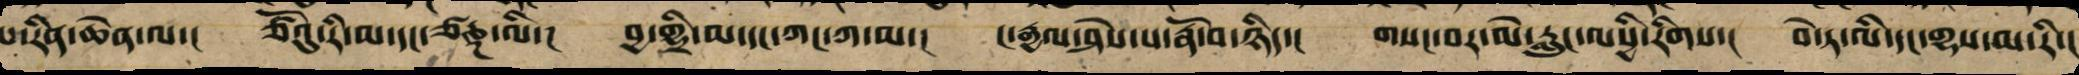པ་རིན་ཆེན་ལ་། ཙོའུ་རི་མ་དང་ཙཎྜ་ལི་།  བྱ་གྷྲི་མ་དང་ཀང་ཀ་མ་།  ང་རྒྱལ་ཤེས་པ་རྣོ་བ་ཉིད་།  གསང་བར་མེ་རླུང་ལསྱི་རིགས་།  བེ་ཏ་ལི་དང་གྷས་མ་རི་།
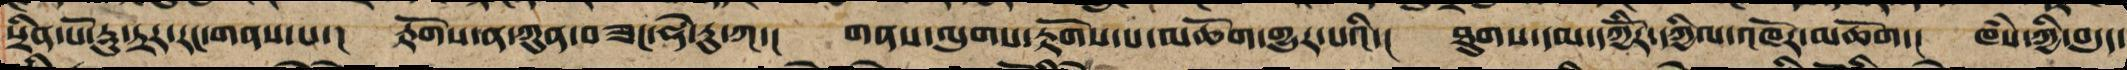སྲིན་པོ་རུ་ཏྲར་རང་གནས་པ་། རྟོགས་ན་ཀུན་བཟང་ཧེ་རུ་ཀ་། གནས་ལུགས་རྟོགས་པ་མཆོག་གྱུར་པའི་། ཐུགས་དམ་དཀྱོིར་དཀྱིལ་འཁོར་མཆོག། ཁཾས་ཀྱི་བདུད་
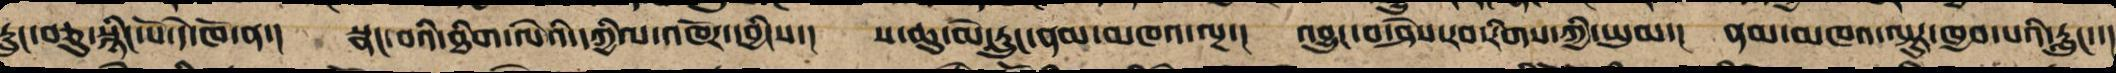རླུང་བཅུ་སྙིང་པོ་དེ་ཁོ་ན་། སྣང་བའི་ཐེག་ལེའི་དཀྱིལ་འཁོར་དབྱིངས་། ས་ཆུ་མེ་རླུང་ནམ་མཁའ་ལྔ་། འབྱུང་བ་ཤེས་རབ་རིགས་ཀྱི་ཡུམ་། ནམ་མཁའ་ལྟ་བུར་ཁྱབ་པའི་རླུང་་།
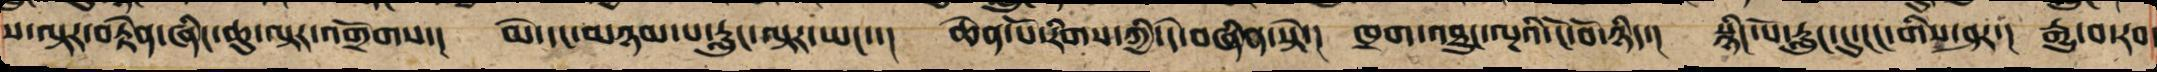ས་ལྟར་བརྟེན་ཞིང་ཆུ་ལྟར་འགྲོགས་། མེ་དང་མཉམ་པ་རླུང་ལྟར་ཡང་་། ཆེན་པོ་རིགས་ཀྱི་དེ་བཞིན་ཏེ་། ཁྲག་འཐུང་ལྔ་ཡི་ངོ་བོ་ཉིད་། སྙིང་པོ་རླུང་དུ་ངང་གིས་ཤར་། རྒྱུ་བ་རབ་
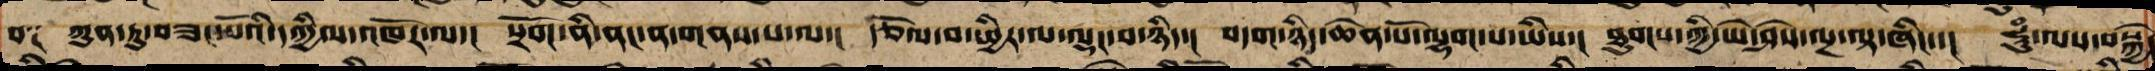བ༑ ཀུན་ཏུ་བཟང་པོའི་དཀྱིལ་འཁོར་ལ་། སྲོག་ནི་ནང་ན་གནས་པ་ལ་། རྩོལ་བ་ཕྱིར་ལ་ལྡང་བ་ཉིད་། བདག་ཉིད་ཆེན་པོ་ལྷག་པ་ཡིས་། ཐུགས་ཀྱི་ཡེ་ཤེས་ལྔ་བལྟ་ཞིང་་། ཧཱུཾ་ལས་བསྐྱེད་
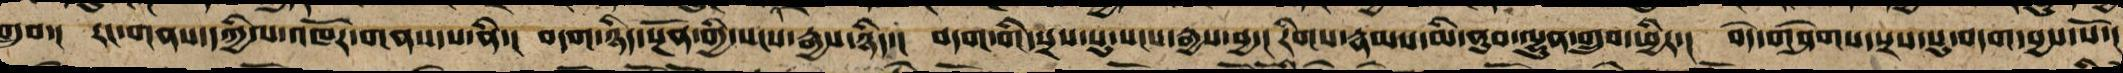གྲུབ་། རང་གནས་དཀྱིལ་འཁོར་གནས་པ་ནི་། བདག་ཉིད་སྔོན་གྱི་སངས་རྒྱས་ཉིད་། བདག་གི་སྲས་སུ་སངས་རྒྱས་བྱ་། རིགས་རྣམས་མི་ནུབ་ལྷུན་གྲུབ་ཕྱིར་། བདེ་གཤེགས་སྲས་སུ་བདག་བྱས་སོ་།
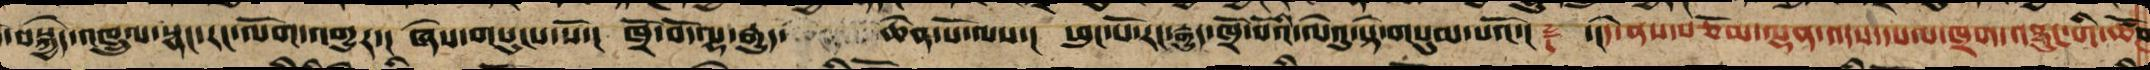་བསྐྱེད་འཁྲུལ་སྣང་རང་ལོག་འགྱུར་། ཞེས་གསུངས་སོ་། ཁྲོ་བོ་ལྷ་རྒྱུད་ཆེན་པོ་ལས་། ཕུང་པོ་རང་རྒྱུད་ཁྲོ་བོའི་ལེའུ་སྟེ་གསུམ་པའོ་།། ༈ །་།དེ་ནས་བཅོམ་ལྡན་འདས་དཔལ་ཁྲག་འཐུང་གི་ཚོག
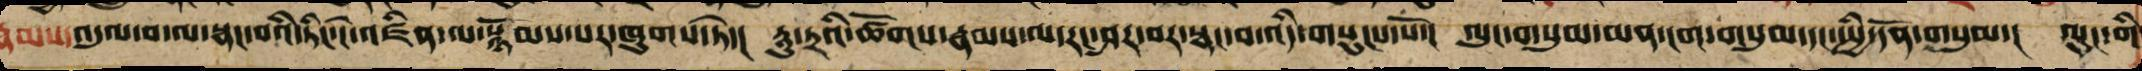རྣམས་འདུལ་བ་ལ་སྣང་བའི་ཏིང་ངེ་འཛིན་ལ་སྙོམས་པར་ཞུགས་ཏེ་། རཱུ་ཏྲའི་ཚོགས་ལ་རང་ཤར་བར་སྣང་བ་འདི་གསུངས་སོ་།  ལུང་གསུམ་མན་ངག་གསུམ་དང་སྤྱི་དོན་གསུམ་། ལུང་གི
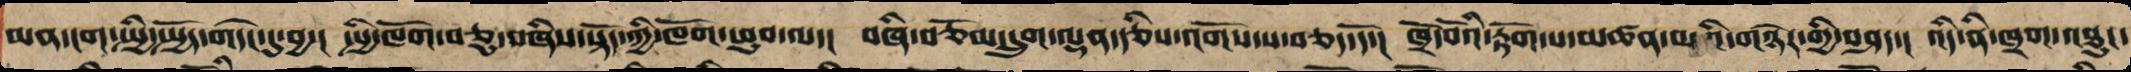མན་ངག་སྤྱི་སྤྱོད་གདེང་དུ་བྱ་། སྤྱི་ཁོག་བཅུ་བཞིས་སྟོད་ཀྱི་ཁོག་ཕུབ་ལ་། བཞི་བཅོམ་དྲུག་ལྡན་རྩིས་འགོས་ས་བཅད་དོ་། ཁྲོ་བོའི་རྟོག་པ་མཚན་མའི་གཉེར་གྱིས་བཤད་། འདི་ནི་ཁྲག་འཐུང་
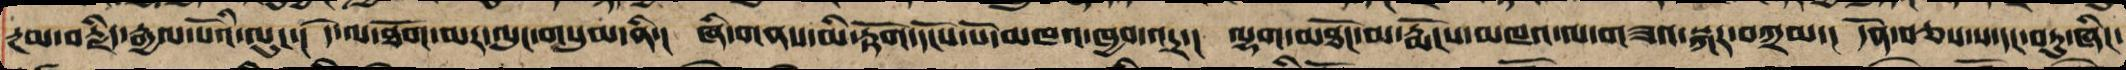རྔམ་བརྗིད་རྒྱལ་པོའི་ལུང་། དེ་ལ་ཐོག་མར་ལུང་གསུམ་ནི་། ཞི་གནས་མི་རྟོག་དངོས་པོ་མཁའ་ཁྱབ་འདྲ་། ལྷག་མཐོང་མ་རྨོངས་མཁའ་ལ་གཟའ་སྐར་བཀྲམ་། དོན་བཅས་པ་དང་བཏུ་ཞིང་
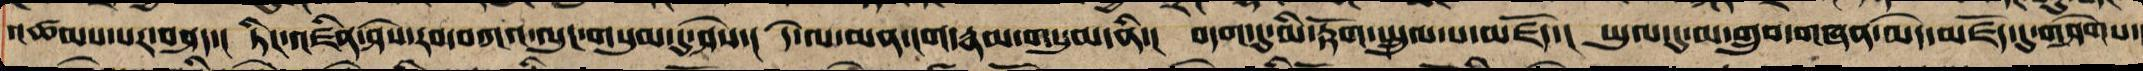འཚམས་པར་བཤད་། ཏིང་འཛིན་ཤེས་རབ་བཀའ་ལུང་གསུམ་དུ་ཤེས་། དེ་ལ་མན་ངག་རྣམ་གསུམ་ནི་། བདག་ཏུ་མི་རྟོག་སྤྲུལ་པ་མཛོད་། ཡུལ་དུ་མ་གྲུབ་གཞན་མེད་མཛོད་དུ་གཤེགས་
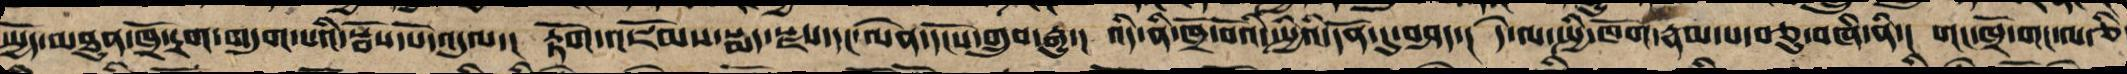སྤྱོད་མཐུན་ཁྲོ་དྲག་གདུག་པ་དཔའ་བོས་འདུལ་། རྟོག་འཇོམས་སྨད་སྫས་དང་ལེན་དངོས་གྲུབ་རྒྱུ་། འདི་ནི་ཁྲོ་བོའི་སྤྱིའི་དོན་དུ་བཤད་། དེ་ལ་སྤྱི་ཁོག་རྣམ་པ་བཅུ་བཞི་ནི་། གང་ཁྲོ་གང་ལ་ཅི
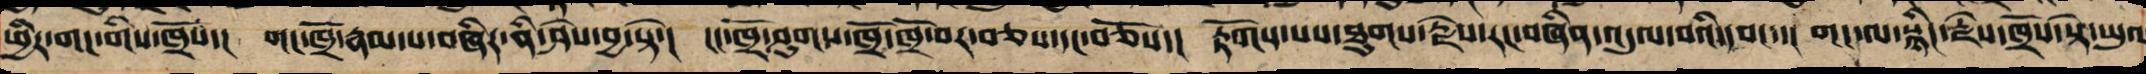ཕྱིར་གང་གིས་ཁྲོ་། གང་ཁྲོ་རྣམ་པ་བཞིར་ནི་ཤེས་བྱ་སྟེ་། རང་ཁྲོ་ཤུགས་ཁྲོ་ཁྲོ་བར་བཅས་དང་བཅོས་། རྟོགས་པས་ཐུགས་རྗེས་རང་བཞིན་འདུལ་བའི་དབང་་། གང་ལ་སྙིང་རྗེས་ཁྲོས་ཏེ་ཡུལ
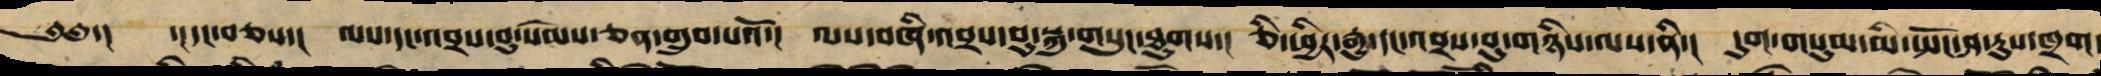༄༅་།  ་།དང་བཅས་། ལས་དང་འབྲས་བུ་སེམས་ཅན་གྲུབ་པའོ་། ལས་བཞི་འབྲས་བུ་སྐུ་གསུང་ཐུགས་། ཅི་ཕྱིར་རྒྱུ་དང་འབྲས་བུ་གཉིས་ལས་ནི་། དུག་གསུམ་མི་སྤོང་ཤ་རུས་ཁྲག་
